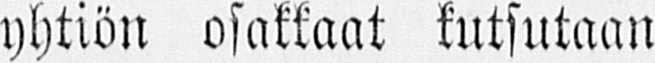yhtiön osakkaat kutsutaan
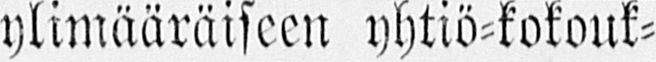ylimääräiseen yhtiö-kokouk-
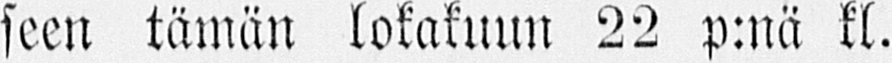seen tämän lokakuun 22 p:nä kl.
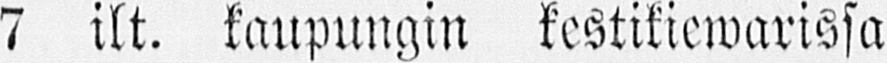7 ilt. kaupungin kestikiewarissa
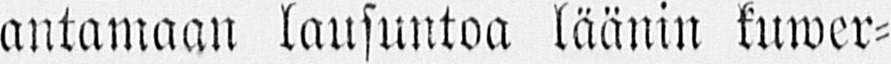antamaan lausuntoa läänin kuwer-
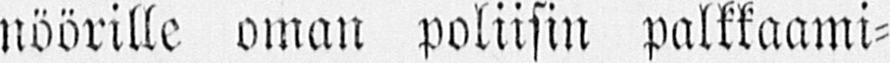nöörille oman poliisin palkkaami-
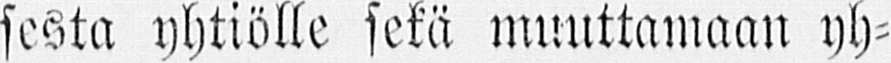sesta yhtiölle sekä muuttamaan yh-
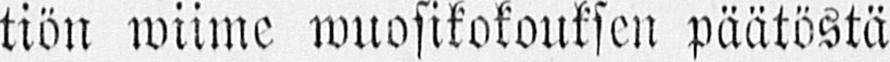tiön wiime wuosikokouksen päätöstä
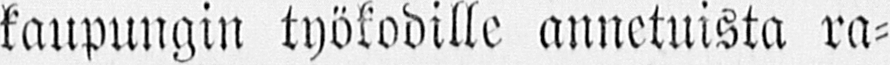kaupungin työkodille annetuista ra-
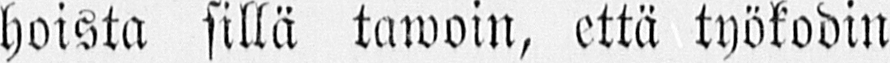hoista sillä tawoin, että työkodin
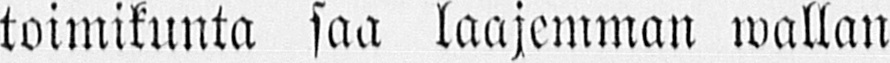toimikunta saa laajemman wallan
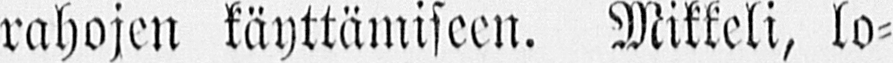rahojen käyttämiseen. Mikkeli, lo-
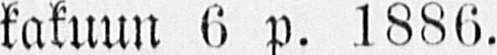kakuun 6 p. 1886.
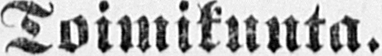Toimikunta.
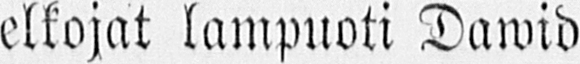Welkojat lampuoti Dawid
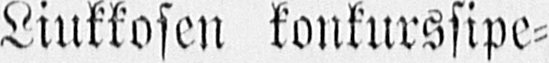Liukkosen konkurssipe-
